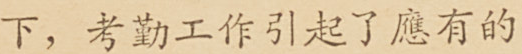下，考勤工作引起了應有的
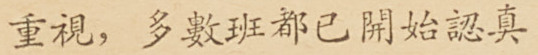重視，多數班都已開始認真
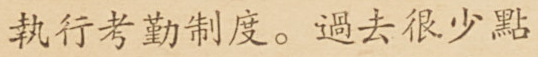執行考勤制度。過去很少點
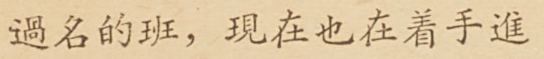過名的班，現在也在着手進
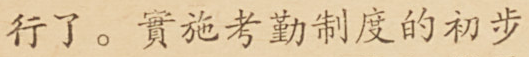行了。實施考勤制度的初步
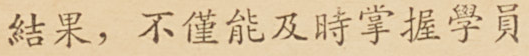結果，不僅能及時掌握學員
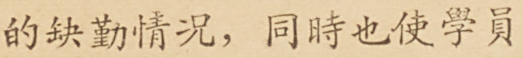的缺勤情況，同時也使學員
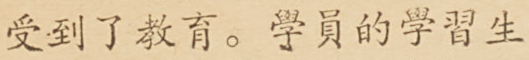受到了教育。學員的學習生
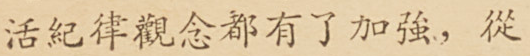活紀律觀念都有了加強，從
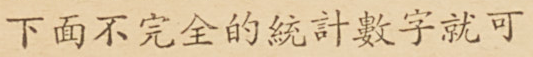下面不完全的統計數字就可
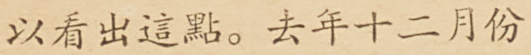以看出這點。去年十二月份
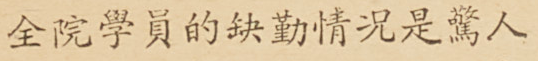全院學員的缺勤情況是驚人
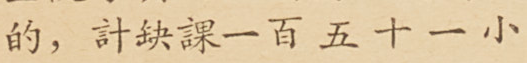的，計缺課一百五十一小
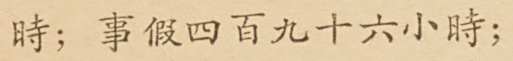時；事假四百九十六小時；
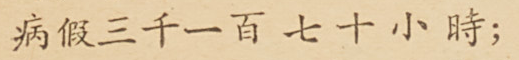病假三千一百七十小時；
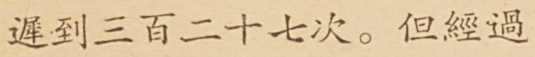遲到三百二十七次。但經過
